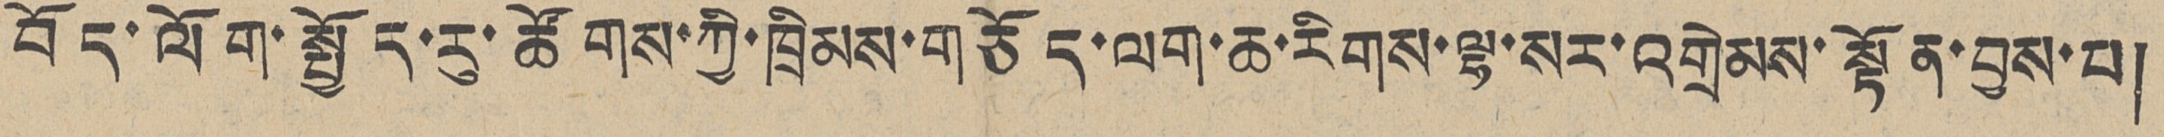བོད་ལོག་སྤྱོད་རུ་ཚོགས་ཀྱི་ཁྲིམས་གཅོད་ལག་ཆ་རིགས་ལྷ་སར་འགྲེམས་སྟོན་བྱས་པ།
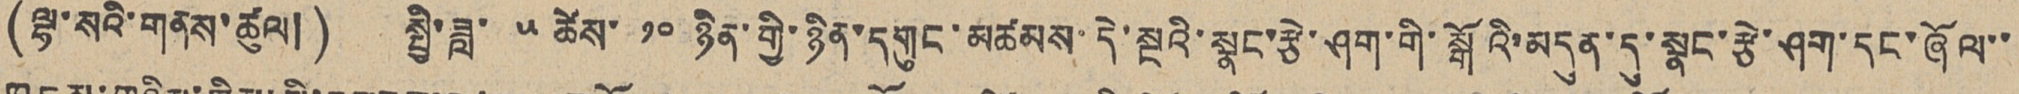(ལྷ་སའི་གནས་ཚུལ།) སྤྱི་ཟླ་ ༥ ཚེས་ ༡༠ ཉིན་གྱི་ཉིན་དགུང་མཚམས་དེ་སྔའི་སྣང་རྩེ་ཤག་གི་སྒོའི་མདུན་དུ་སྣང་རྩེ་ཤག་དང་ཞོལ་་
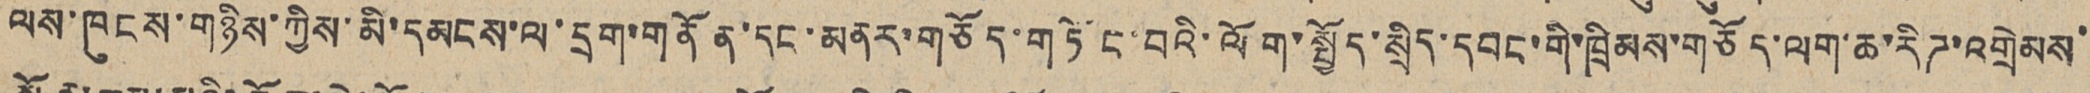ལས་ཁུངས་གཉིས་ཀྱིས་མི་དམངས་ལ་དྲག་གནོན་དང་མནར་གཅོད་གཏོང་བའི་ལོག་སྤྱོད་སྲིད་དབང་གི་ཁྲིམས་གཅོད་ལག་ཆ་རིཊ་འགྲེམས་
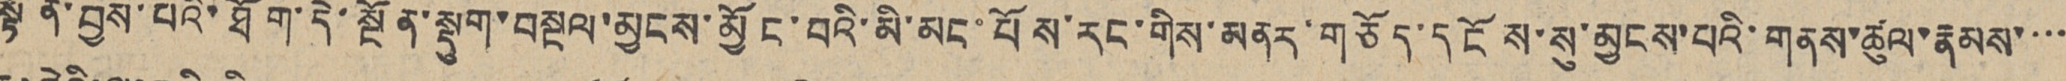སྟོན་བྱས་པའི་ཐོག་དེ་སྔོན་སྡུག་བསྔལ་མྱངས་མྱོང་བའི་མི་མང་པོས་རང་གིས་མནར་གཅོད་དངོས་སུ་མྱངས་པའི་གནས་ཚུལ་རྣམས་་་་
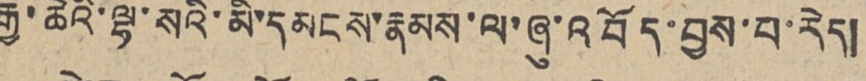རྒྱ་ཆེའི་ལྷ་སའི་མི་དམངས་རྣམས་ལ་ཞུ་འབོད་བྱས་པ་རེད།
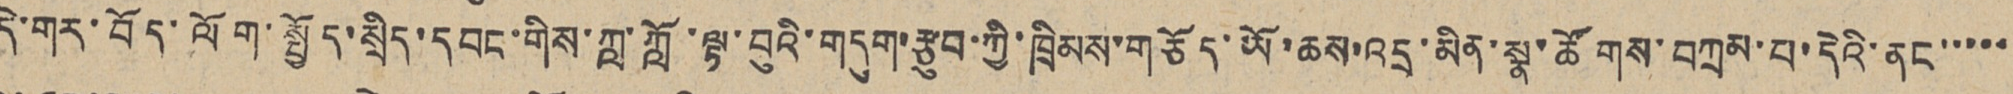དེ་གར་བོད་ལོག་སྤྱོད་སྲིད་དབང་གིས་ཀླ་ཀློ་ལྟ་བུའི་གདུག་རྩུབ་ཀྱི་ཁྲིམས་གཅོད་ཡོ་ཆས་འདྲ་མིན་སྣ་ཚོགས་བཀྲམ་པ་དེའི་ནང་་་་་
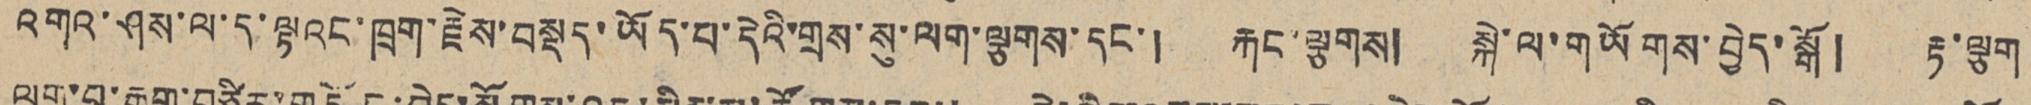འགའ་ཤས་ལ་ད་ལྟའང་ཁྲག་རྗེས་བསྡད་ཡོད་པ་དེའི་གྲས་སུ་ལག་ལྕགས་དང་། རྐང་ལྕགས། སྐེ་ལ་གཡོགས་བྱེད་སྒོ། རྟ་ལྕག
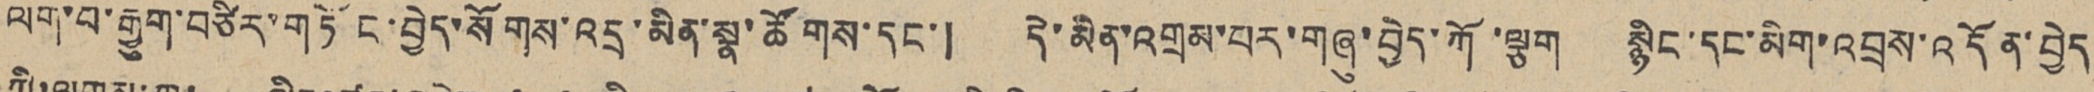ལག་པ་རྒྱུག་བཙིར་གཏོང་བྱེད་སོགས་འདྲ་མིན་སྣ་ཚོགས་དང་། དེ་མིན་འགྲམ་པར་གཞུ་བྱེད་ཀོ་ལྕག སྙིང་དང་མིག་འབྲས་འདོན་བྱེད
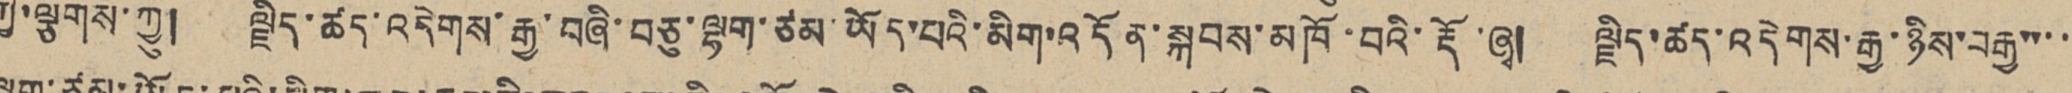ཀྱི་ལྕགས་ཀྱུ། ལྗིད་ཚད་འདེགས་རྒྱ་བཞི་བཅུ་ལྷག་ཙམ་ཡོད་པའི་མིག་འདོན་སྐབས་མཁོ་བའི་རྡོ་ཞྭ། ལྗིད་ཚད་འདེགས་རྒྱ་ཉིས་བརྒྱ་་་་
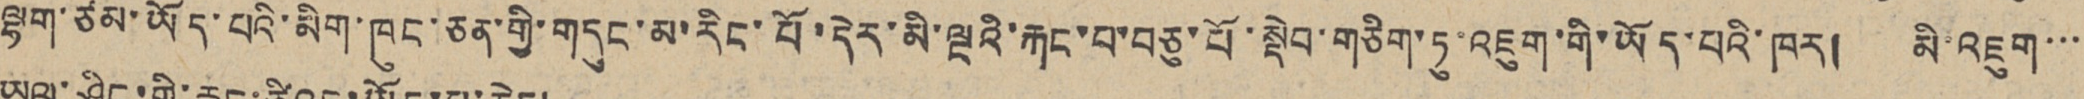ལྷག་ཙམ་ཡོད་པའི་མིག་ཁུང་ཅན་གྱི་གདུང་མ་རིང་པོ་དེར་མི་ལྔའི་རྐང་པ་བཅུ་པོ་སྡེབ་གཅིག་ཏུ་འཇུག་གི་ཡོད་པའི་ཁར། མི་འཇུག་་་
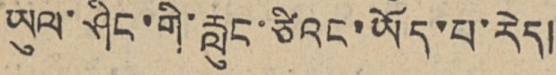ཡུལ་ཤིང་གི་རླུང་ཙིའང་ཡོད་པ་རེད།
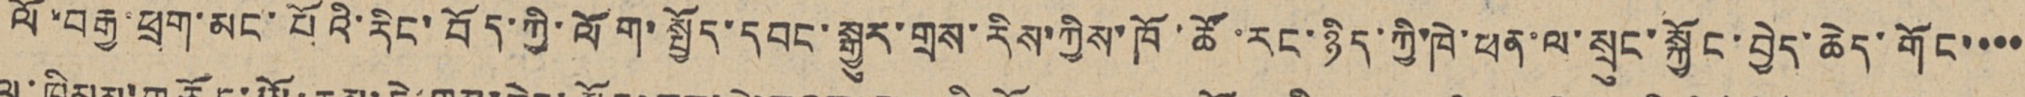ལོ་བརྒྱ་ཕྲག་མང་པོའི་རིང་བོད་ཀྱི་ལོག་སྤྱོད་དབང་སྒྱུར་གྲས་རིས་ཀྱིས་ཁོ་ཚོ་རང་ཉིད་ཀྱི་ཁེ་ཕན་ལ་སྲུང་སྐྱོང་བྱེད་ཆེད་གོང་་་་
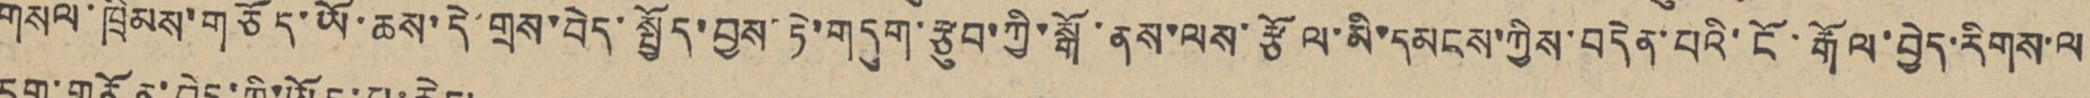གསལ་ཁྲིམས་གཅོད་ཡོ་ཆས་དེ་གྲས་བེད་སྤྱོད་བྱས་ཏེ་གདུག་རྩུབ་ཀྱི་སྒོ་ནས་ལས་རྩོལ་མི་དམངས་ཀྱིས་བདེན་པའི་ངོ་རྒོལ་བྱེད་རིགས་ལ
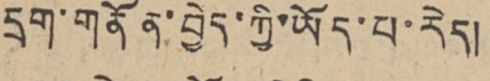དྲག་གནོན་བྱེད་ཀྱི་ཡོད་པ་རེད།
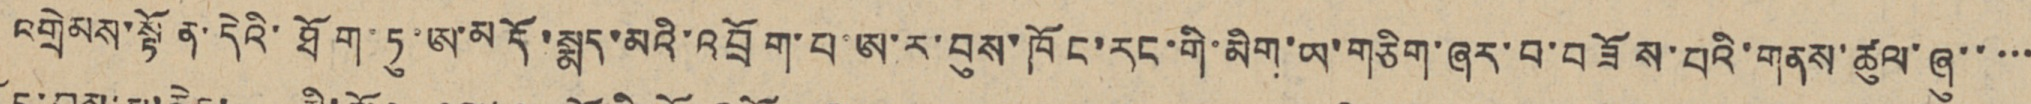འགྲེམས་སྟོན་དེའི་ཐོག་ཏུ་ཨ་མདོ་སྨད་མའི་འབྲོག་པ་ཨ་ར་བུས་ཁོང་རང་གི་མིག་ཡ་གཅིག་ཞར་བ་བཟོས་པའི་གནས་ཚུལ་ཞུ་་་་་
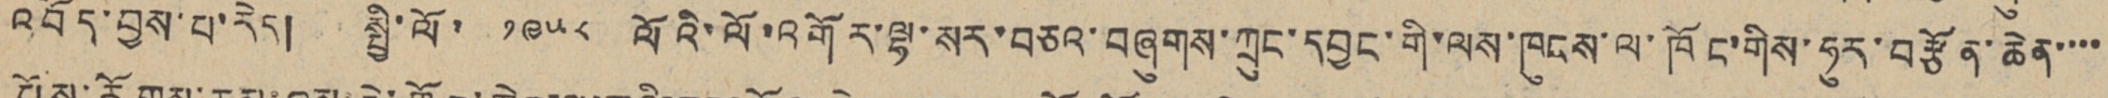འབོད་བྱས་པ་རེད། སྤྱི་ལོ་ ༡༩༥༨ ལོའི་ལོ་འགོར་ལྷ་སར་བཅའ་བཞུགས་ཀྲུང་དབྱང་གི་ལས་ཁུངས་ལ་ཁོང་གིས་ཧུར་བརྩོན་ཆེན་་་་
